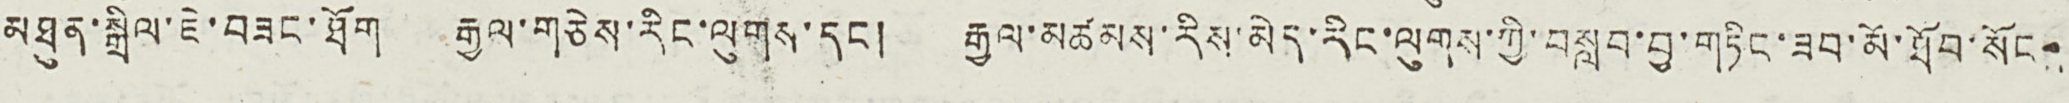མཐུན་སྒྲིལ་ཇེ་བཟང་ཐོག རྒྱལ་གཅེས་རིང་ལུགས་དང ། རྒྱལ་མཚམས་རིས་མེད་རིང་ལུགས་ཀྱི་བསླབ་བྱ་གཏིང་ཟབ་མོ་ཐོབ་སོང་།
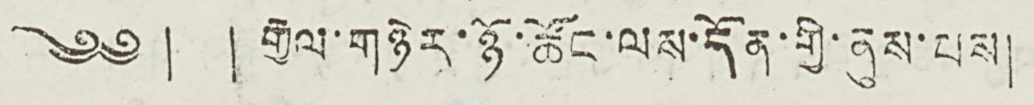༄༅ ། ། རྒྱལ་གཉེར་ཉོ་ཚོང་ལས་དོན་གྱི་ནུས་པས།
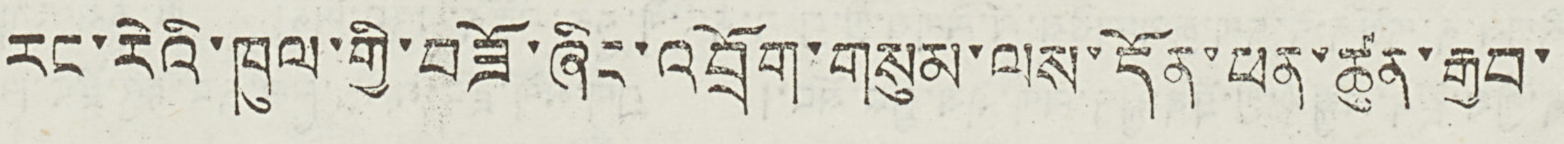རང་རེའི་ཁུལ་གྱི་བཟོ་ཞིང་འབྲོག་གསུམ་ལས་དོན་ཕན་ཚུན་རྒྱབ་
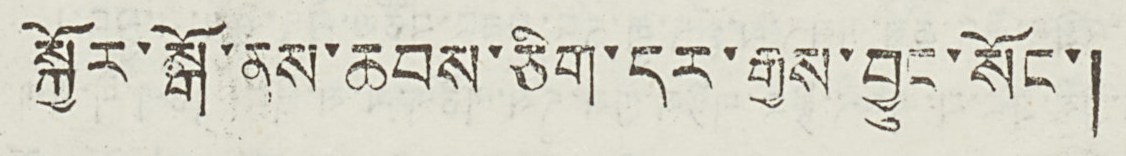སྐྱོར་སྒོ་ནས་ཆབས་ཅིག་དར་རྒྱས་བྱུང་སོང་།
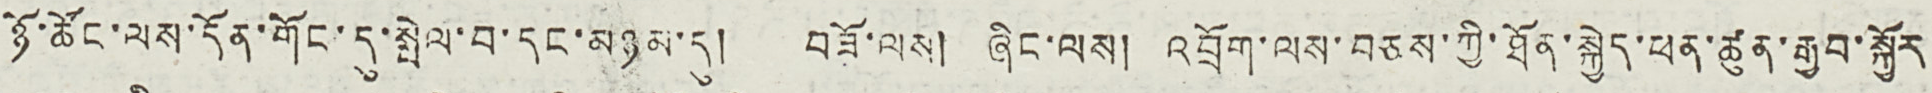ཉོ་ཚོང་ལས་དོན་གོང་དུ་སྤེལ་བ་དང་མཉམ་དུ། བཟོ་ལས། ཞིང་ལས། འབྲོག་ལས་བཅས་ཀྱི་ཐོན་སྐྱེད་ཕན་ཚུན་རྒྱབ་སྐྱོར
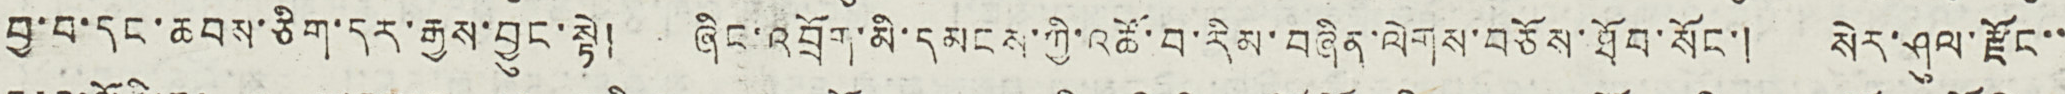བྱ་བ་དང་ཆབས་ཅིག་དར་རྒྱས་བྱུང་སྟེ། ཞིང་འབྲོག་མི་དམངས་ཀྱི་འཚོ་བ་རིམ་བཞིན་ལེགས་བཅོས་ཐོབ་སོང་། སེར་ཤུལ་རྫོང་་
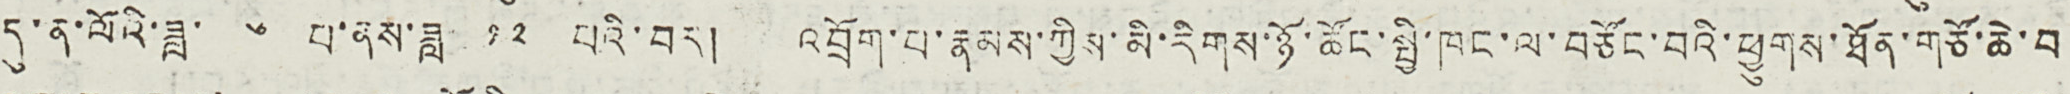དུ་ན་ལོའི་ཟླ་ ༦ པ་ནས་ཟླ ༡༢ པའི་བར། འབྲོག་པ་རྣམས་ཀྱིས་མི་རིགས་ཉོ་ཚོང་སྤྱི་ཁང་ལ་བཙོང་བའི་ཕྱུགས་ཐོན་གཙོ་ཆེ་བ
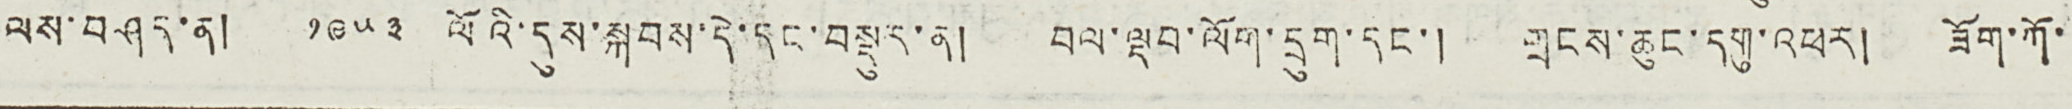ལས་བཤད་ན། ༡༩༥༣ ལོའི་དུས་སྐབས་དེ་དང་བསྡུར་ན། བལ་ལྡབ་ལོག་དུག་དང་། གྲངས་ཆུང་དགུ་འཕར། ཟོག་ཀོ་
